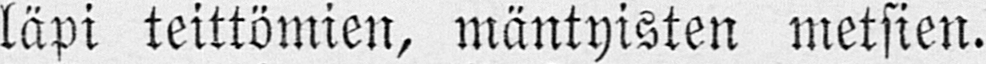läpi teittömien, mäntyisten metsien.
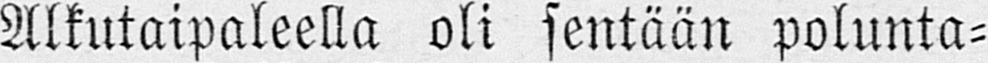Alkutaipaleella oli sentään polunta-
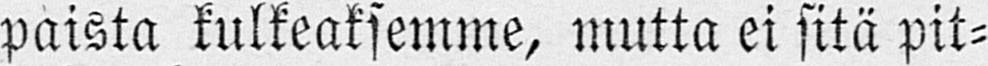paista kulkeaksemme, mutta ei sitä pit-
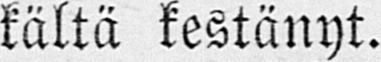kältä kestänyt.
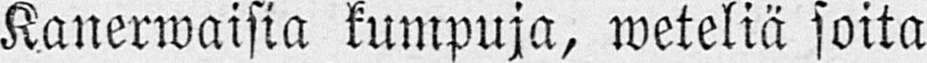Kanerwaisia kumpuja, meteliä soita
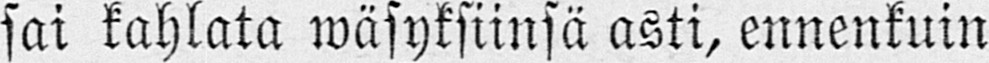sai kahlata wäsyksiinsä asti, ennenkuin
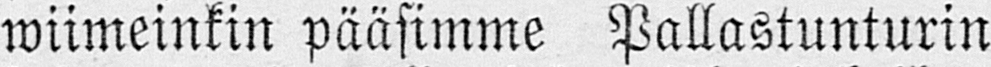wiimeinkin pääsimme Pallastunturin
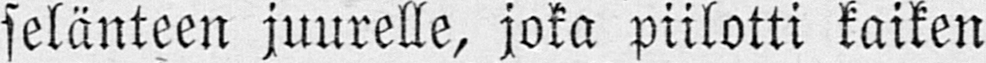selänteen juurelle, joka piilotti kaiken
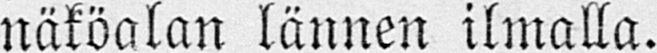näköalan lännen ilmalla.
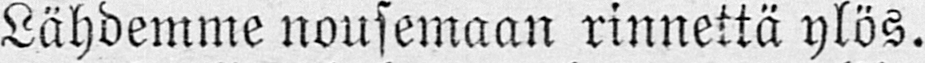Lähdemme nousemaan rinnettä ylös.
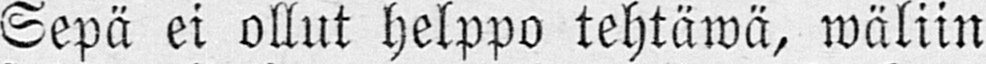Sepä ei ollut helppo tehtäwä, wällin
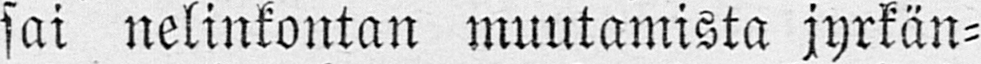sai nelinkontan muutamista jyrkän-
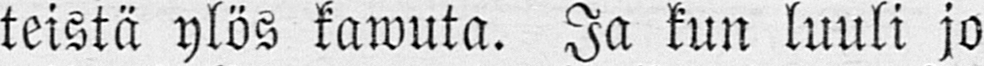teistä ylös kawuta. Ja kun luuli jo
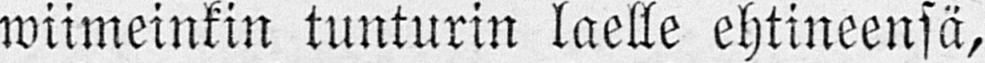wiimeinkin tunturin laelle ehtineensä,
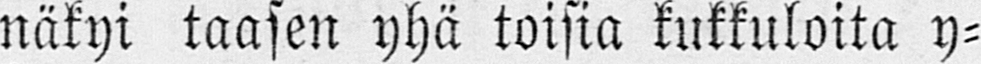näkyi taasen yhä toisia kukkuloita y-
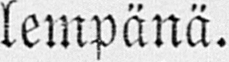lempänä.
